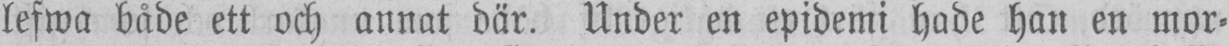lefwa både ett och annat där. Under en epidemi hade han en mor-
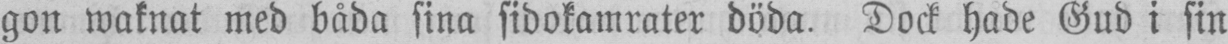gon waknat med båda sina sidokamrater döda. Dock hade Gud i sin
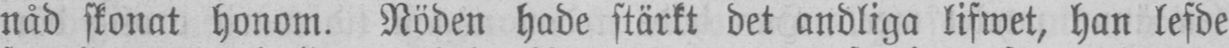nåd skonat honom. Nöden hade stärkt det andliga lifwet, han lefde
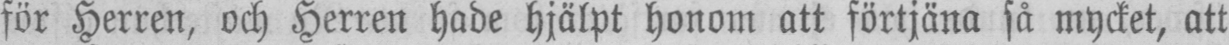för Herren, och Herren hade hjälpt honom att förtjäna så mycket, att
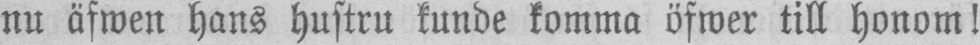nu äfwen hans hustru kunde komma öfwer till honom!
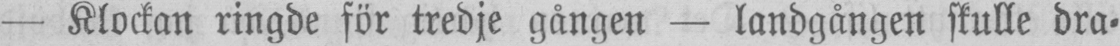— Klockan ringde för tredje gången — landgången skulle dra-
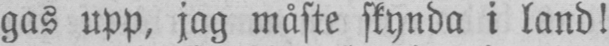gas upp, jag måste skynda i land!
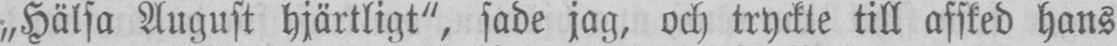„Hälsa August hjärtligt", sade jag, och tryckte till afsked hans
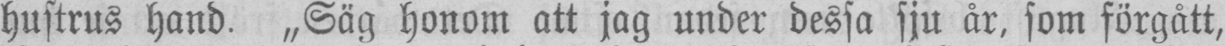hustrus hand. „Säg honom att jag under dessa sju år, som förgått,
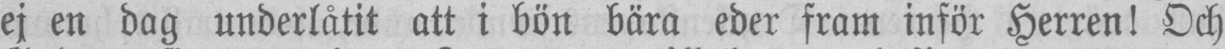ej en dag underlåtit att i bön bära eder fram inför Herren! Och
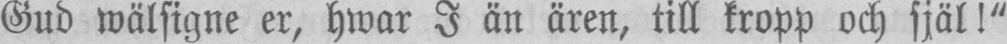Gud wälsigne er, hwar I än ären, till kropp och själ!"
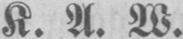K. A. W.
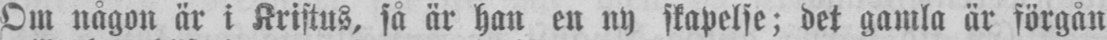Om någon är i Kristus, så är han en ny skapelse; det gamla är förgån-
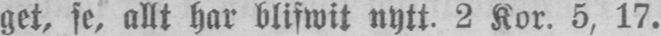get, se, allt har blifwit nytt. 2 Kor. 5, 17.
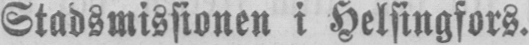Stadsmissionen i Helsingfors.
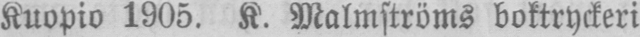Kuopio 1905. K. Malmströms boktryckeri
